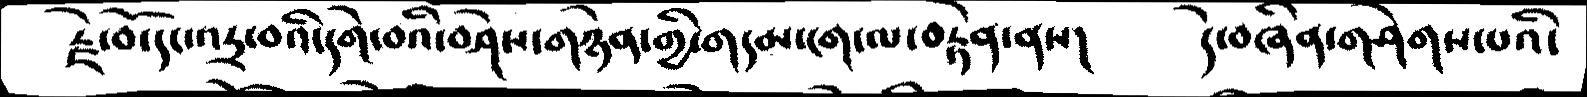རྗེ་བོ་དང་འདྲ་བའི་དགེ་བའི་བཤེས་གཉེན་གྱི་གདམ་ངག་ལ་བརྟེན་ནས།   དེ་བཞིན་གཤེགས་པའི་
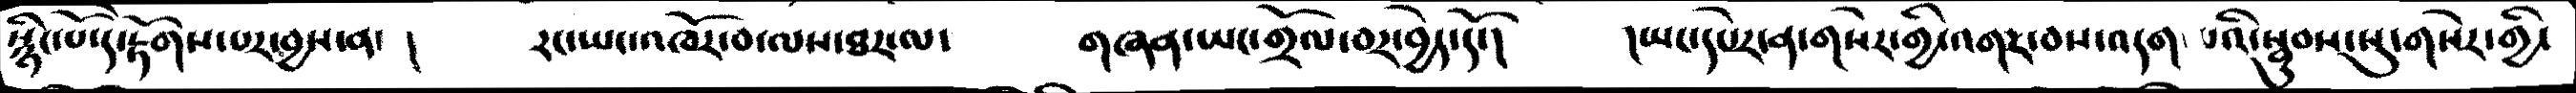སྙིང་པོ་དེ་རྟོགས་པར་བྱས་ན་ །   རང་ཡང་འཁོར་བ་ལས་ཐར་ལ་     གཞན་ཡང་གྲོལ་བར་བྱེད་དོ་།   །ཡང་དཔེར་ན་གསེར་གྱི་འགར་བས་འདག་པའི་སྦུབས་སུ་གསེར་གྱི་
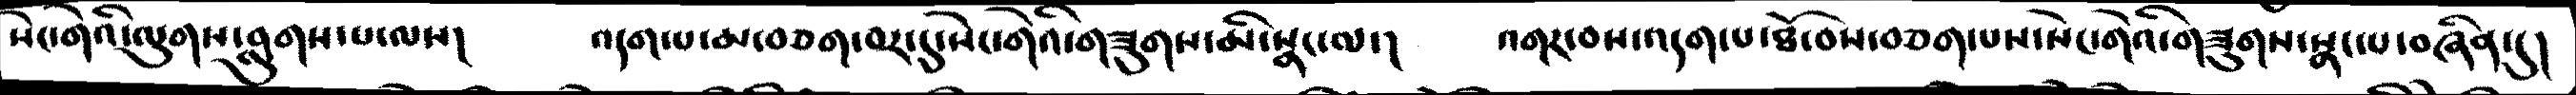སེང་གེའི་ལུགས་བླུགས་པ་ལས།    འདག་པ་མ་བཅག་བར་དུ་སེང་གེའི་གཟུགས་མི་སྣང་ལ་།    འགར་བས་འདག་པ་ཐོ་བས་བཅག་པས་སེང་གེའི་གཟུགས་སྣང་པ་བཞིན་དུ།
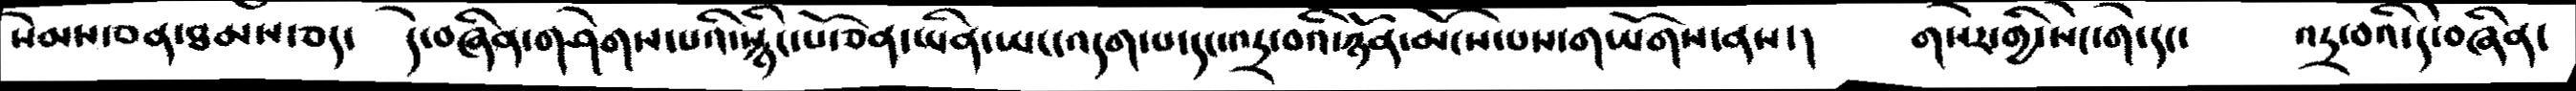སེམས་ཅན་ཐམས་ཅད་   དེ་བཞིན་གཤེགས་པའི་སྙིང་པོ་ཅན་ཡིན་ཡང་འདག་པ་དང་འདྲ་བའི་ཉོན་མོངས་པས་གཡོགས་ནས་།   གསེར་གྱི་སེང་གེ་དང་   འདྲ་བའི་དེ་བཞིན་
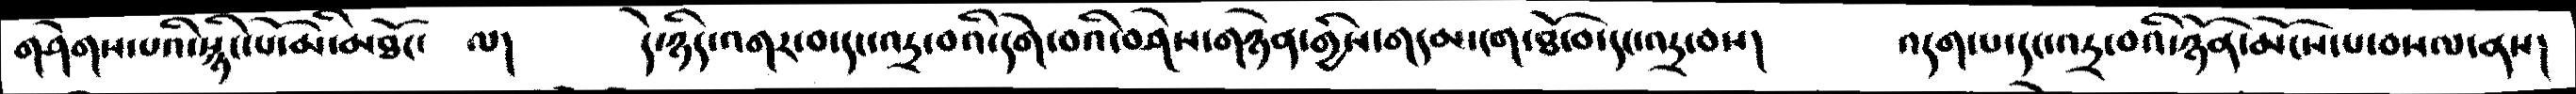གཤེགས་པའི་སྙིང་པོ་མི་མཐོང་  ལ།     དེ་ཉིད་འགར་བ་དང་འདྲ་བའི་དགེ་བའི་བཤེས་གཉེན་གྱིས་གདམ་ངག་ཐོབ་དང་འདྲ་བས།  འདག་པ་དང་འདྲ་བའི་ཉོན་མོངས་པ་བསལ་ནས།
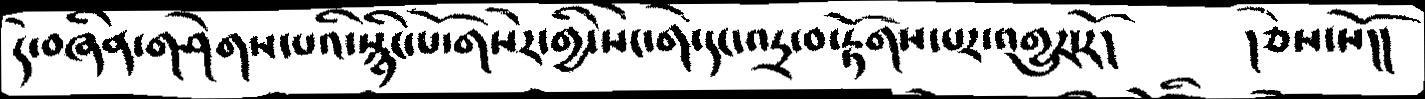དེ་བཞིན་གཤེགས་པའི་སྙིང་པོ་གསེར་གྱི་སེང་གེ་དང་འདྲ་བ་རྟོགས་པར་འགྱུར་རོ།    །ཅེས་སོ།།
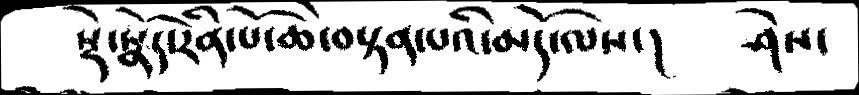སྡེ་སྣོད་རིན་པོ་ཆེ་བསྟན་པའི་མདོ་ལས་།  ཤེས་
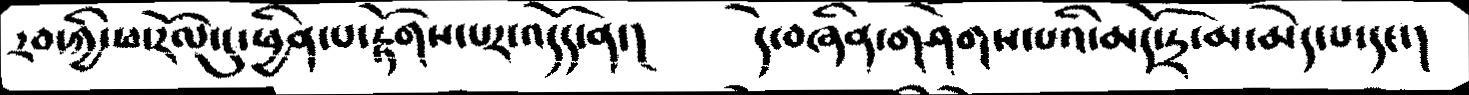རབ་ཀྱི་ཕ་རོལ་དུ་ཕྱིན་པ་རྟོགས་པར་འདོད་ན་།   དེ་བཞིན་གཤེགས་པའི་མདོ་ཏྲ་མ་མེད་པ་དང་།
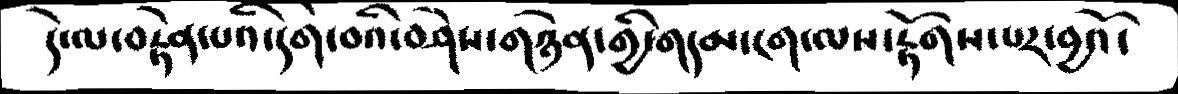དེ་ལ་རྟེན་པའི་དགེ་བའི་བཤེས་གཉེན་གྱི་གདམ་ངག་ལས་རྟོགས་པར་བྱའོ་
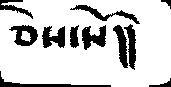ཅེས་སོ།།
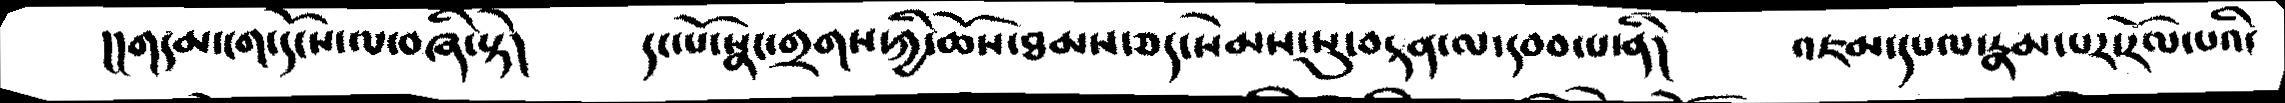།།གདམ་ངག་དངོས་ལ་བཞི་སྟེ།   དང་པོ་སྣང་གྲགས་ཀྱི་ཆོས་ཐམས་ཅད་སེམས་སུ་བརྟན་ལ་དབབ་པ་ནི།   འཇམ་དཔལ་རྣམ་པར་རོལ་པའི་
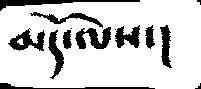མདོ་ལས་།
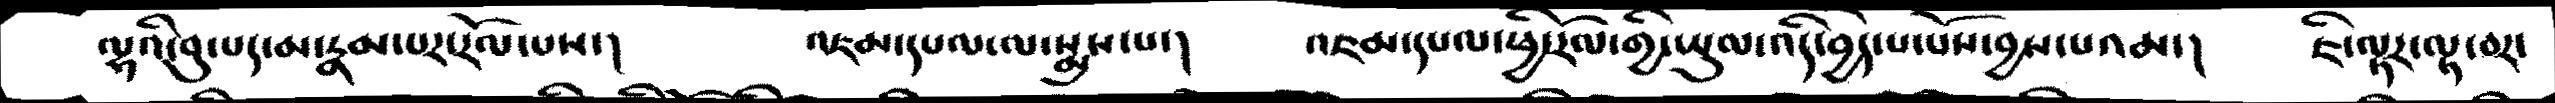ལྷའི་བུ་པད་མ་རྣམ་པར་རོལ་པས་།    འཇམ་དཔལ་ལ་སྨྲས་པ་།   འཇམ་དཔལ་ཕྱི་རོལ་གྱི་ཡུལ་འདི་བྱེད་པ་པོས་བྱས་པའམ་།   ཇི་ལྟར་ལྟ་བར་
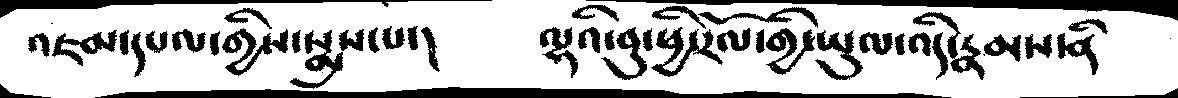འཇམ་དཔལ་གྱིས་སྨྲས་པ་།    ལྷའི་བུ་ཕྱི་རོལ་གྱི་ཡུལ་འདི་རྣམས་ནི
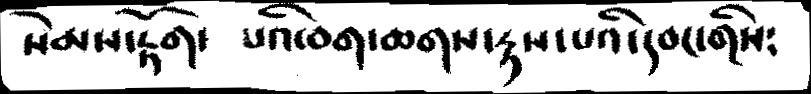སེམས་རྟོག་   པའི་བག་ཆགས་རྟས་པའི་དབང་གིས༴
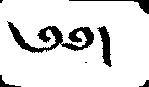༄༅།
